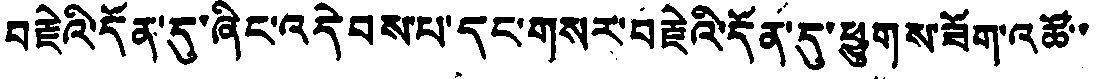བརྗེའི་དོན་དུ་ཞིང་འདེབས་པ་དང་གསར་བརྗེའི་དོན་དུ་ཕྱུགས་ཟོག་འཚོ་་
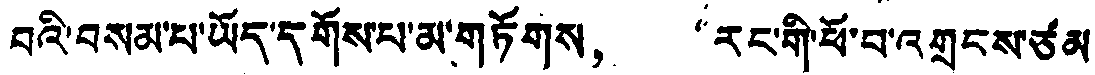བའི་བསམ་པ་ཡོད་དགོས་པ་མ་གཏོགས， “རང་གི་ཕོ་བ་འགྲངས་ཙམ
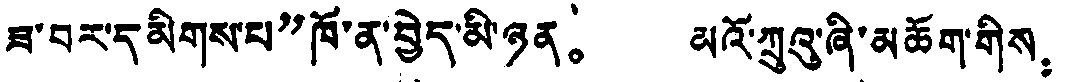ཟ་བར་དམིགས་པ”ཁོ་ན་བྱེད་མི་ཉན。 མའོ་ཀྲུའུ་ཞི་མཆོག་གིས：
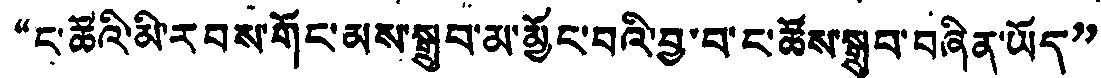“ང་ཚོའི་མི་རབས་གོང་མས་སྒྲུབ་མ་མྱོང་བའི་བྱ་བ་ང་ཚོས་སྒྲུབ་བཞིན་ཡོད”
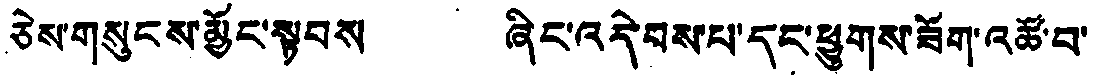ཅེས་གསུངས་མྱོང་སྟབས ཞིང་འདེབས་པ་དང་ཕྱུགས་ཟོག་འཚོ་བ་
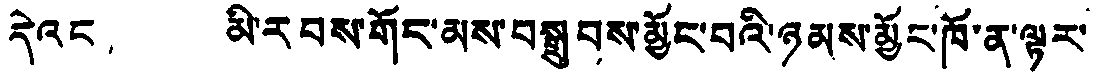དེའང། མི་རབས་གོང་མས་བསྒྲུབས་མྱོང་བའི་ཉམས་མྱོང་ཁོ་ན་ལྟར་
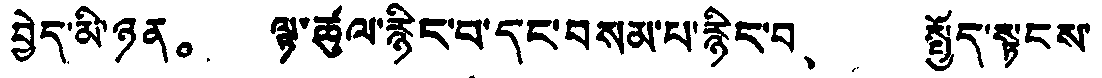བྱེད་མི་ཉན。 ལྟ་ཚུལ་རྙིང་བ་དང་བསམ་པ་རྙིང་བ、 སྤྱོད་སྟངས་
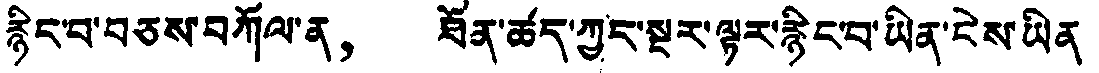རྙིང་བ་བཅས་བཀོལ་ན， ཐོན་ཚད་ཀྱང་སྔར་ལྟར་རྙིང་བ་ཡིན་ངེས་ཡིན
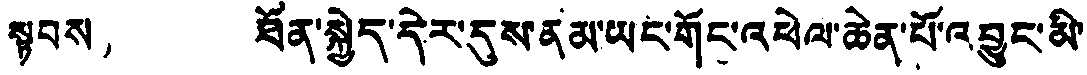སྟབས， ཐོན་སྐྱེད་དེར་དུས་ནམ་ཡང་གོང་འཕེལ་ཆེན་པོ་འབྱུང་མི་
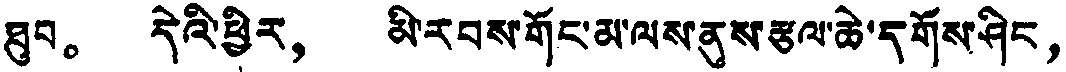ཐུབ。 དེའི་ཕྱིར， མི་རབས་གོང་མ་ལས་ནུས་རྩལ་ཆེ་དགོས་ཤིང，
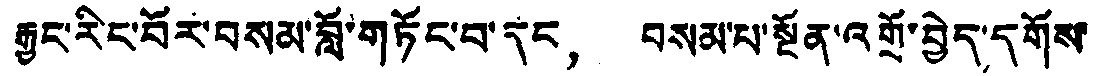རྒྱང་རིང་བོར་བསམ་བློ་གཏོང་བ་དང， བསམ་པ་སྔོན་འགྲོ་བྱེད་དགོས་
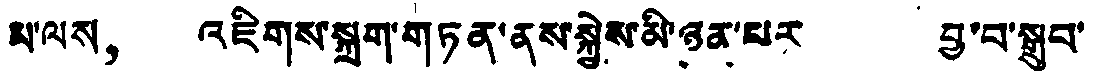མ་ལས， འཇིགས་སྐྲག་གཏན་ནས་སྐྱེས་མི་ཉན་པར བྱ་བ་སྒྲུབ་
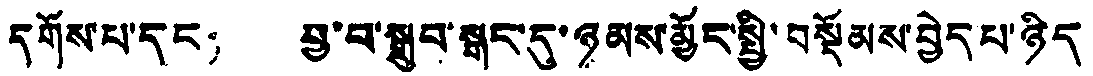དགོས་པ་དང； བྱ་བ་སྒྲུབ་སྐད་དུ་ཉམས་མྱོར་སྤྱི་བསྡོམས་བྱེད པ་ཉིད་
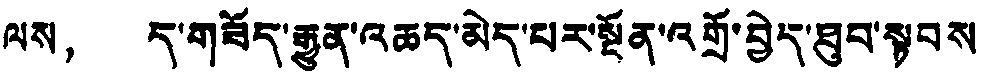ལས， ད་གཟོད་རྒྱུན་འཆད་མེད་པར་སྔོན་འགྲོ་བྱེད་ཐུབ་སྟབས
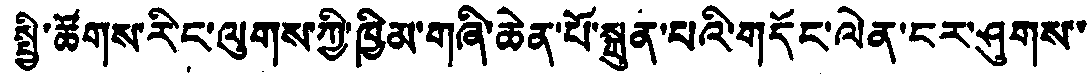སྤྱི་ཚོགས་རིང་ལུགས་ཀྱི་ཁྱིམ་གཞི་ཆེན་པོ་སྐྲུན་པའི་གདོང་ལེན་ངར་ཤུགས་་
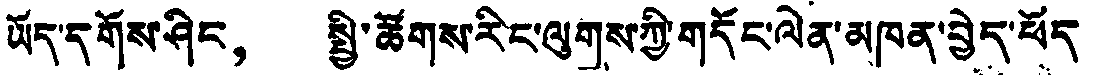ཡོད་དགོས་ཤིང། སྤྱི་ཚོགས་རིང་ལུགས་ཀྱི་གདོང་ལེན་མཁན་བྱེད་ཕོད
